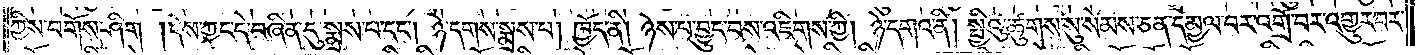ཀྱིས་བགོས་ཤིག །དེས་ཀྱང་དེ་བཞིན་དུ་སྨྲས་པ་དང༌། ཉེ་དགས་སྨྲས་པ། ཁྱོད་ནི། ཉེས་པ་བྱུང་བས་འཇིགས་ཀྱི། ཉེ་དགའ་ནི། སྤྱིའུ་ཚུགས་སུ་སེམས་ཅན་དམྱལ་བར་འགྲོ་བར་འགྱུར་བར་
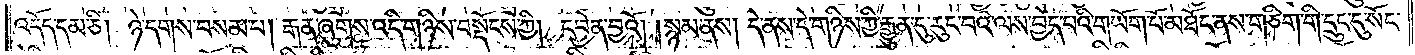འདོད་དམ་ཅི། ཉེ་དགས་བསམ་པ། རྒན་ཞུགས་འདི་གཉིས་བསྡོངས་ཀྱི། དབྱེན་བྱའོ། །སྙམ་ནས། དེ་ནས་དེ་གཉིས་ཀྱི་རྒྱུན་དུ་རུང་བའི་ལས་བྱེད་པའི་གཡོག་པོ་མཐོང་ནས་གཅིག་གི་དྲུང་དུ་སོང་
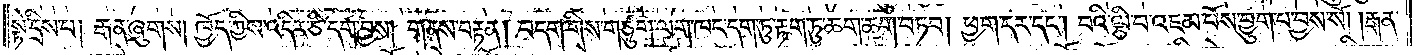སྟེ་དྲིས་པ། རྒན་ཞུགས། ཁྱོད་ཀྱིས་འདིར་ཅི་དག་བྱས། གནས་བརྟན། བདག་གིས་གཙུག་ལག་ཁང་དག་ཏུ་རྟག་ཏུ་ཆག་ཆག་བཏག། ཕྱག་དར་དང༌། བའི་ལྕི་བ་འཇམ་པོས་བྱུག་པ་བྱས་སོ། །རྒན་
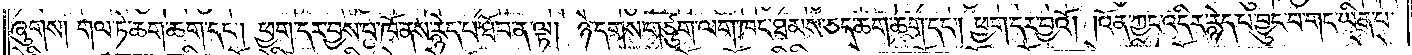ཞུགས། གལ་ཏེ་ཆག་ཆག་དང༌། ཕྱག་དར་བྱས་པ་ཁོ་ནས་རྙེད་པ་ཐོབ་ན་ལྟ། ཉེ་དགས་གཙུག་ལག་ཁང་ཐམས་ཅད་ཆག་ཆག་དང༌། ཕྱག་དར་བྱའོ། །འོན་ཀྱང་འདིར་རྙེད་པ་བྱུང་བ་གང་ཡིན་པ་
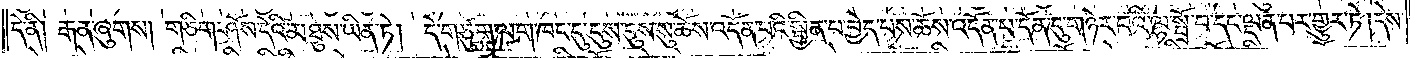དེ་ནི། རྒན་ཞུགས། གཅིག་ཤོས་དེའི་མཐུས་ཡིན་ཏེ། དེ་གཙུག་ལག་ཁང་དུ་དུས་དུས་སུ་ཆོས་འདོན་པའི་སྦྱིན་པ་བྱེད་པས་ཆོས་འདོན་པ་དོན་དུ་གཉེར་བའི་ལྷ་སྤྲོ་བ་དང་ལྡན་པར་གྱུར་ཏེ། དེས་
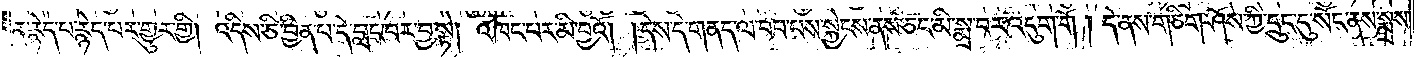ན་རྙེད་པ་རྙེད་པར་གྱུར་གྱི། འདིས་ཅི་བྱིན་པ་དེ་བླང་བར་བྱ་སྟེ། འཁང་པར་མི་བྱའོ། །དེས་དེ་གནད་ལ་བབ་པས་སྐྱེངས་ནས་ཅང་མི་སྨྲ་བར་འདུག་གོ །དེ་ནས་གཅིག་ཤོས་ཀྱི་དྲུང་དུ་སོང་ནས་སྨྲས་
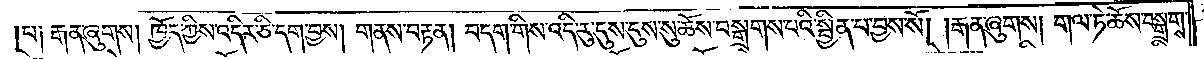།པ༑ རྒན་ཞུགས། ཁྱོད་ཀྱིས་འདིར་ཅི་དག་བྱས། གནས་བརྟན། བདག་གིས་འདི་རུ་དུས་དུས་སུ་ཆོས་བསྒྲགས་པའི་སྦྱིན་པ་བྱས་སོ། །རྒན་ཞུགས། གལ་ཏེ་ཆོས་བསྒྲགས་
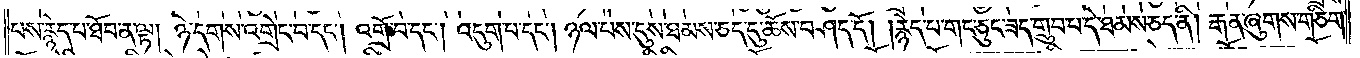པས་རྙེད་པ་ཐོབ་ན་ལྟ། ཉེ་དགས་འགྲེང་བ་དང༌། འགྲོ་བ་དང༌། འདུག་པ་དང༌། ཉལ་བས་དུས་ཐམས་ཅད་དུ་ཆོས་བཤད་དོ། །རྙེད་པ་གང་ཅུང་ཟད་གྲུབ་པ་དེ་ཐམས་ཅད་ནི། རྒན་ཞུགས་གཅིག་
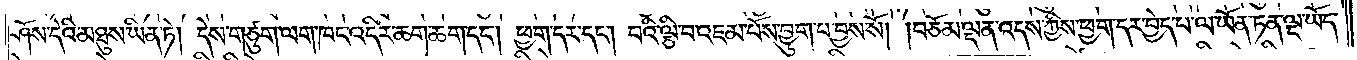ཤོས་དེའི་མཐུས་ཡིན་ཏེ། དེས་གཙུག་ལག་ཁང་འདིར་ཆག་ཆག་དང༌། ཕྱག་དར་དང༌། བའི་ལྕི་བ་འཇམ་པོས་བྱུག་པ་བྱས་སོ། །བཅོམ་ལྡན་འདས་ཀྱིས་ཕྱག་དར་བྱེད་པ་ལ་ཡོན་ཏན་ལྔ་ཡོད་
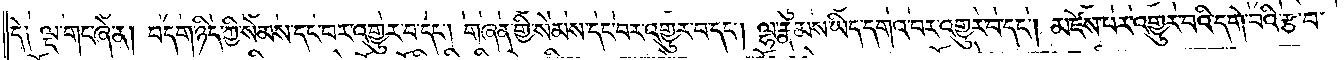དེ༑ ལྔ་གང་ཞེ་ན། བདག་ཉིད་ཀྱི་སེམས་དང་བར་འགྱུར་བ་དང༌། གཞན་གྱི་སེམས་དང་བར་འགྱུར་བ་དང༌། ལྷ་རྣམས་ཡིད་དགའ་བར་འགྱུར་བ་དང༌། མཛེས་པར་འགྱུར་བའི་དགེ་བའི་རྩ་བ་
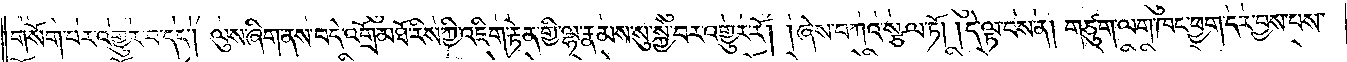གསོག་པར་འགྱུར་བ་དང༌། ལུས་ཞིག་ནས་བདེ་འགྲོ་མཐོ་རིས་ཀྱི་འཇིག་རྟེན་གྱི་ལྷ་རྣམས་སུ་སྐྱེ་བར་འགྱུར་རོ། །ཞེས་བཀའ་སྩལ་ཏོ། །དེ་ལྟ་བས་ན། གཙུག་ལག་ཁང་ཕྱག་དར་བྱས་པས་
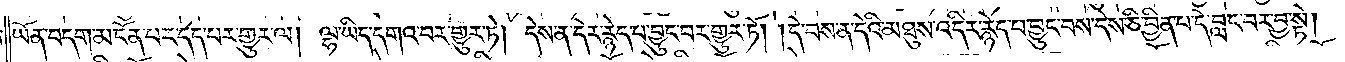ཡོན་བདག་མངོན་པར་དད་པར་གྱུར་ལ། ལྷ་ཡིད་དགའ་བར་གྱུར་ཏེ། དེས་ན་དེར་རྙེད་པ་བྱུང་བར་གྱུར་ཏོ། །དེ་བས་ན་དེའི་མཐུས་འདིར་རྙེད་པ་བྱུང་བས་དེས་ཅི་བྱིན་པ་དེ་བླང་བར་བྱ་སྟེ།
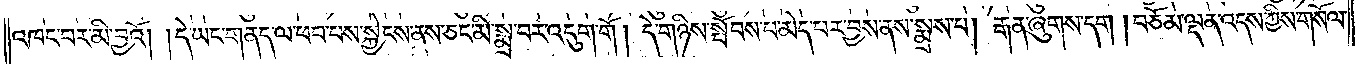འཁང་བར་མི་བྱའོ། །དེ་ཡང་གནད་ལ་ཕབ་པས་སྐྱེངས་ནས་ཅང་མི་སྨྲ་བར་འདུག་གོ །དེ་གཉིས་སྤོབས་པ་མེད་པར་བྱས་ནས་སྨྲས་པ། རྒན་ཞུགས་དག །བཅོམ་ལྡན་འདས་ཀྱིས་གསོལ་
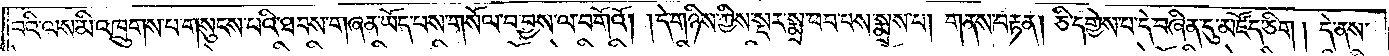བའི་ལས་མི་འཁྲུགས་པ་གསུངས་པའི་ཐབས་གཞན་ཡོད་པས་གསོལ་བ་བྱས་ལ་བགོའོ། །དེ་གཉིས་ཀྱིས་སྔར་སྨྲ་ཕབ་པས་སྨྲས་པ། གནས་བརྟན། ཅི་དགྱེས་པ་དེ་བཞིན་དུ་མཛོད་ཅིག །དེ་ནས་
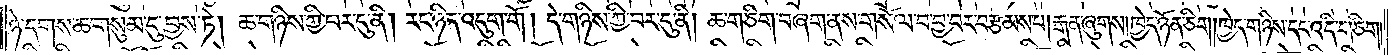ཉེ་དགས་ཆ་གསུམ་དུ་བྱས་ཏེ། ཆ་གཉིས་ཀྱི་བར་དུ་ནི། རང་ཉིད་འདུག་གོ །དེ་གཉིས་ཀྱི་བར་དུ་ནི། ཆ་གཅིག་བཞག་ནས་གསོལ་བ་བྱ་བར་བརྩམས་པ། རྒན་ཞུགས། ཁྱེད་ཉོན་ཅིག །ཁྱེད་གཉིས་དང་འདི་གཅིག།
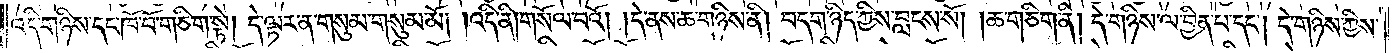འདི་གཉིས་དང་ཁོ་བོ་གཅིག་སྟེ། དེ་ལྟར་ན་གསུམ་གསུམ་མོ། །འདི་ནི། གསོལ་བའོ། །དེ་ནས་ཆ་གཉིས་ནི། བདག་ཉིད་ཀྱིས་བླངས་སོ། །ཆ་གཅིག་ནི། དེ་གཉིས་ལ་བྱིན་པ་དང༌། དེ་གཉིས་ཀྱིས་
